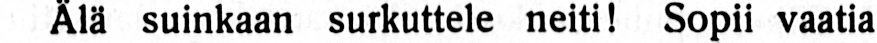Älä suinkaan surkuttele neiti! Sopii vaatia
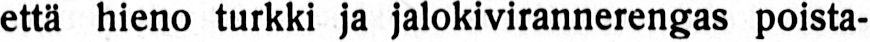että hieno turkki ja jalokivirannerengas poista-
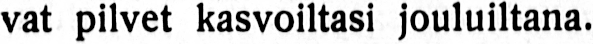vat pilvet kasvoiltasi jouluiltana.
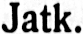Jatk.
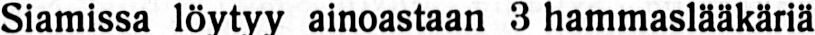Siamissa löytyy ainoastaan 3 hammaslääkäriä.
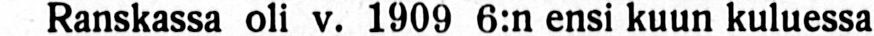Ranskassa oli v. 1909 6:n ensi kuun kuluessa
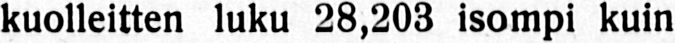kuolleitten luku 28,203 isompi kuin syntyneit-
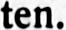ten.
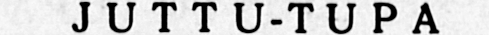JUTTU-TUPA
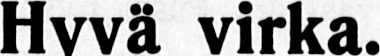Hyvä virka.
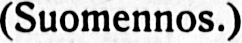(Suomennos.)
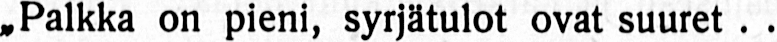„Palkka on pieni, syrjätulot ovat suuret . . ."
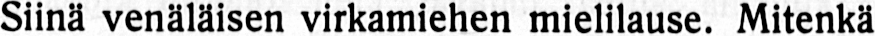Siinä venäläisen virkamiehen mielilause. Mitenkä
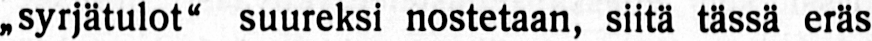„syrjätulot" suureksi nostetaan, siitä tässä eräs
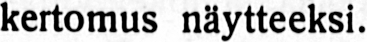kertomus näytteeksi.
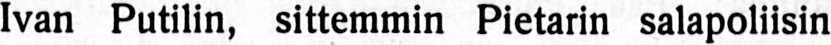Ivan Putilin, sittemmin Pietarin salapoliisin
